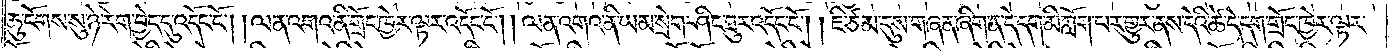ཆུ་ངོགས་སུ་ཉེ་རེག་བྱེད་དུ་འདོང་ངོ༌། །ལན་འགའ་ནི་གྲོང་ཁྱེར་ལྟར་འདོང་ངོ༌། །ལན་འགའ་ནི་ཡམ་སྲེག་ཤིང་ཐུར་འདོང་ངོ༌། །ཇི་ཙམ་དུས་གཞན་ཞིག་ན་དེ་དག་མི་ཀློག་པར་གྱུར་ནས་དེའི་ཚེ་དེ་དག་གྲོང་ཁྱེར་ལྟར་
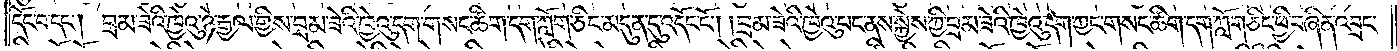དོང་བ་དང༌། བྲམ་ཟེའི་ཁྱེའུ་ཉེ་རྒྱལ་གྱིས་བྲམ་ཟེའི་ཁྱེའུ་དག་གསང་ཚིག་དག་ཀློག་ཅིང་མདུན་དུ་འདོང་ངོ༌། །བྲམ་ཟེའི་ཁྱེའུ་པང་ནས་སྐྱེས་ཀྱི་བྲམ་ཟེའི་ཁྱེའུ་དག་ཀྱང་གསང་ཚིག་དག་ཀློག་ཅིང་ཕྱི་བཞིན་འབྲང་
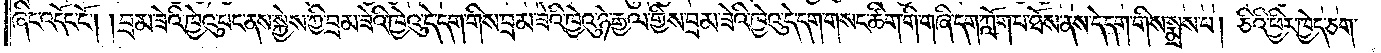ཞིང་འདོང་ངོ༌། །བྲམ་ཟེའི་ཁྱེའུ་པང་ནས་སྐྱེས་ཀྱི་བྲམ་ཟེའི་ཁྱེའུ་དེ་དག་གིས་བྲམ་ཟེའི་ཁྱེའུ་ཉེ་རྒྱལ་གྱིས་བྲམ་ཟེའི་ཁྱེའུ་དེ་དག་གསང་ཚིག་གི་གཞི་དག་ཀློག་པ་ཐོས་ནས་དེ་དག་གིས་སྨྲས་པ། ཅིའི་ཕྱིར་ཁྱེད་ཅག་
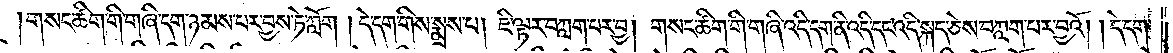གསང་ཚིག་གི་གཞི་དག་ཉམས་པར་བྱས་ཏེ་ཀློག །དེ་དག་གིས་སྨྲས་པ། ཇི་ལྟར་བཀླག་པར་བྱ། གསང་ཚིག་གི་གཞི་འདི་དག་ནི་འདི་དང་འདི་སྐད་ཅེས་བཀླག་པར་བྱའོ། །དེ་དག་
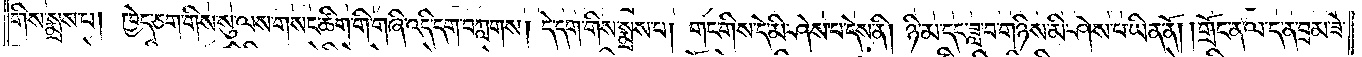གིས་སྨྲས་པ། ཁྱེད་ཅག་གིས་སུ་ལས་གསང་ཚིག་གི་གཞི་འདི་དག་བཀླགས། དེ་དག་གིས་སྨྲས་པ། གང་གིས་དེ་མི་ཤེས་པ་དེས་ནི། ཉི་མ་དང་ཟླ་བ་གཉིས་མི་ཤེས་པ་ཡིན་ནོ། །གྲོང་ན་ལ་ད་ན་བྲམ་ཟེ་
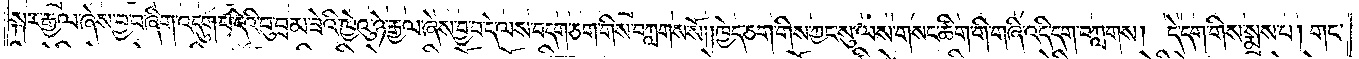སྐར་རྒྱལ་ཞེས་བྱ་བ་ཞིག་འདུག་པ་དེའི་བུ་བྲམ་ཟེའི་ཁྱེའུ་ཉེ་རྒྱལ་ཞེས་བྱ་བ་དེ་ལས་བདག་ཅག་གིས་བཀླགས་སོ། །ཁྱེད་ཅག་གིས་ཀྱང་སུ་ལས་གསང་ཚིག་གི་གཞི་འདི་དག་བཀླགས། དེ་དག་གིས་སྨྲས་པ། གང་
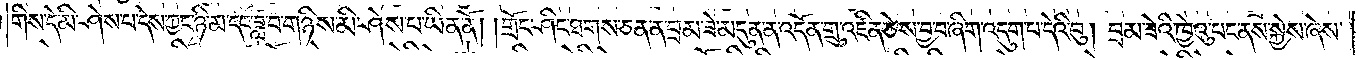གིས་དེ་མི་ཤེས་པ་དེས་ཀྱང་ཉི་མ་དང་ཟླ་བ་གཉིས་མི་ཤེས་པ་ཡིན་ནོ། །གྲོང་ཤིང་ཐགས་ཅན་ན་བྲམ་ཟེ་མདུན་ན་འདོན་གྲུ་འཛིན་ཅེས་བྱ་བ་ཞིག་འདུག་པ་དེའི་བུ། བྲམ་ཟེའི་ཁྱེའུ་པང་ནས་སྐྱེས་ཞེས་
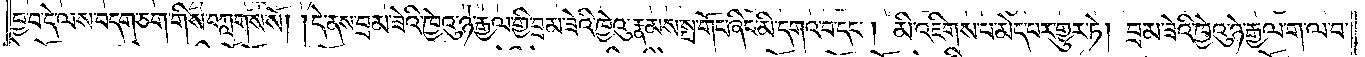བྱ་བ་དེ་ལས་བདག་ཅག་གིས་བཀླགས་སོ། །དེ་ནས་བྲམ་ཟེའི་ཁྱེའུ་ཉེ་རྒྱལ་གྱི་བྲམ་ཟེའི་ཁྱེའུ་རྣམས་པ་གོང་ཞིང་མི་དགའ་བ་དང༌། མི་འཇིགས་པ་མེད་པར་གྱུར་ཏེ། བྲམ་ཟེའི་ཁྱེའུ་ཉེ་རྒྱལ་ག་ལ་བ་
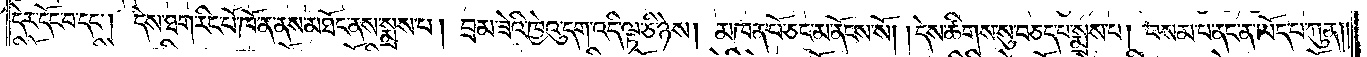དེར་དོང་བ་དང༌། དེས་ཐག་རིང་པོ་ཁོ་ན་ནས་མཐོང་ནས་སྨྲས་པ། བྲམ་ཟེའི་ཁྱེའུ་དག་འདི་ལྟ་ཅི་ཉེས། མཁན་པོ་ཅང་མ་ནོངས་སོ། །དེས་ཚིགས་སུ་བཅད་པ་སྨྲས་པ། བསམ་པ་ནང་ན་ཡོད་པ་ཀུན༎
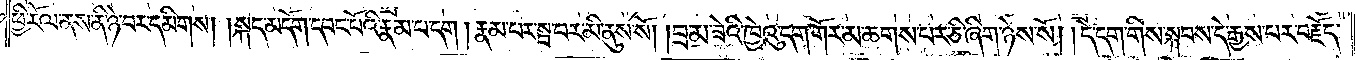ཕྱི་རོལ་ནས་ནི་ཉེ་བར་དམིགས། །སྐད་མདོག་དབང་པོའི་རྣམ་པ་དག །རྣམ་པར་སྦ་བར་མི་ནུས་སོ། །བྲམ་ཟེའི་ཁྱེའུ་དག་གོར་མ་ཆགས་པར་ཅི་ཞིག་ཉེས་སོ། །དེ་དག་གིས་སྐབས་དེ་རྒྱས་པར་བརྗོད་
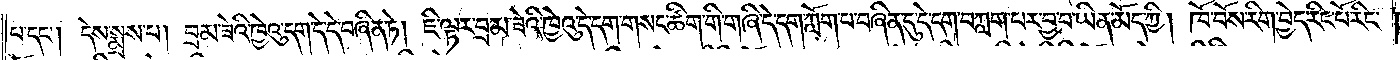པ་དང༌། དེས་སྨྲས་པ། བྲམ་ཟེའི་ཁྱེའུ་དག་དེ་དེ་བཞིན་ཏེ། ཇི་ལྟར་བྲམ་ཟེའི་ཁྱེའུ་དེ་དག་གསང་ཚིག་གི་གཞི་དེ་དག་ཀློག་པ་བཞིན་དུ་དེ་དག་བཀླག་པར་བྱ་བ་ཡིན་མོད་ཀྱི། ཁོ་བོས་རིག་བྱེད་རིང་པོ་རིང་
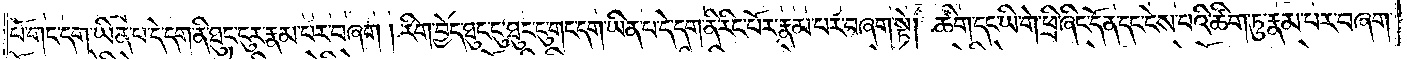པོ་གང་དག་ཡིན་པ་དེ་དག་ནི་ཐུང་ངུར་རྣམ་པར་བཞག །རིག་བྱེད་ཐུང་ངུ་ཐུང་ངུ་གང་དག་ཡིན་པ་དེ་དག་ནི་རིང་པོར་རྣམ་པར་བཞག་སྟེ། ཚིག་དང་ཡི་གེ་ཕྲི་ཞིང་དོན་དང་ངེས་པའི་ཚིག་ཏུ་རྣམ་པར་བཞག་
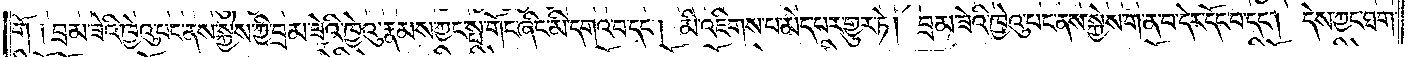གོ ༑བྲམ་ཟེའི་ཁྱེའུ་པང་ནས་སྐྱེས་ཀྱི་བྲམ་ཟེའི་ཁྱེའུ་རྣམས་ཀྱང་སྤ་གོང་ཞིང་མི་དགའ་བ་དང༌། མི་འཇིགས་པ་མེད་པར་གྱུར་ཏེ། བྲམ་ཟེའི་ཁྱེའུ་པང་ནས་སྐྱེས་ག་ན་བ་དེར་དོང་བ་དང༌། དེས་ཀྱང་ཐག་
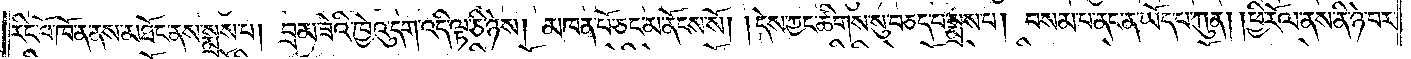རིང་པོ་ཁོ་ན་ནས་མཐོང་ནས་སྨྲས་པ། བྲམ་ཟེའི་ཁྱེའུ་དག་འདི་ལྟ་ཅི་ཉེས། མཁན་པོ་ཅང་མ་ནོངས་སོ། །དེས་ཀྱང་ཚིགས་སུ་བཅད་པ་སྨྲས་པ། བསམ་པ་ནང་ན་ཡོད་པ་ཀུན། །ཕྱེི་རོལ་ནས་ནི་ཉེ་བར་
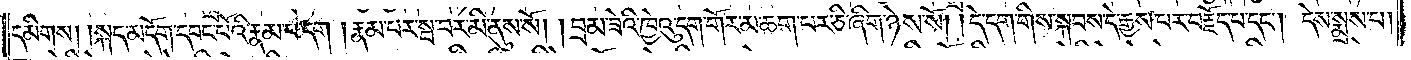དམིགས། །སྐད་མདོག་དབང་པོའི་རྣམ་པ་དག །རྣམ་པར་སྦ་བར་མི་ནུས་སོ། །བྲམ་ཟེའི་ཁྱེའུ་དག་གོར་མ་ཆག་པར་ཅི་ཞིག་ཉེས་སོ། །དེ་དག་གིས་སྐབས་དེ་རྒྱས་པར་བརྗོད་པ་དང༌། དེས་སྨྲས་པ།
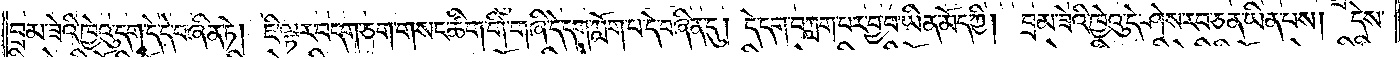བྲམ་ཟེའི་ཁྱེའུ་དག་དེ་དེ་བཞིན་ཏེ། ཇི་ལྟར་བདག་ཅག་གསང་ཚིག་གི་གཞི་དེ་དག་ཀློག་པ་དེ་བཞིན་དུ། དེ་དག་བཀླག་པར་བྱ་བ་ཡིན་མོད་ཀྱི། བྲམ་ཟེའི་ཁྱེའུ་དེ་ཤེས་རབ་ཅན་ཡིན་པས། དེས་
